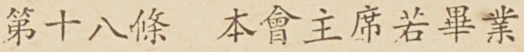第十八條 本會主席若畢業
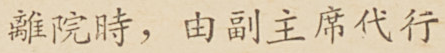離院時，由副主席代行
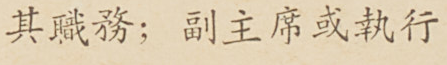其職務；副主席或執行
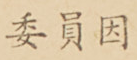委員因
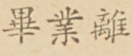畢業離
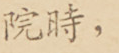院時，
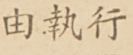由執行
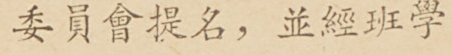委員會提名，並經班學
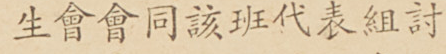生會會同該班代表組討
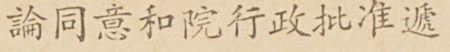論同意和院行政批准遞
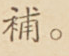補。
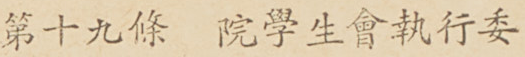第十九條 院學生會執行委
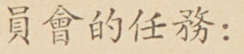員會的任務：
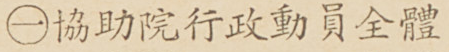㊀協助院行政動員全體
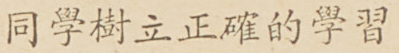同學樹立正確的學習
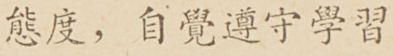態度，自覺遵守學習
